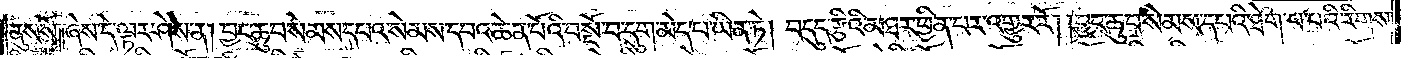ནུས་སོ༑ ༑ཞེས་དེ་ལྟར་ཤེས་ན། བྱང་ཆུབ་སེམས་དཔའ་སེམས་དཔའ་ཆེན་པོའི་བསྔོ་བ་དུག་མེད་པ་ཡིན་ཏེ། བདུད་རྩིའི་མཐར་ཕྱིན་པར་འགྱུར་རོ། །བྱང་ཆུབ་སེམས་དཔའི་ཐེག་པ་པའི་རིགས་
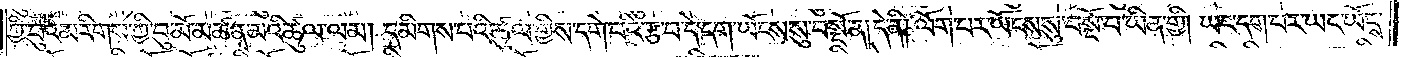ཀྱི་བུའམ་རིགས་ཀྱི་བུ་མོ་མཚན་མའི་ཚུལ་ལམ། དམིགས་པའི་ཚུལ་གྱིས་དགེ་བའི་རྩ་བ་དེ་དག་ཡོངས་སུ་བསྔོ་ན། དེ་ནི། ལོག་པར་ཡོངས་སུ་བསྔོ་བ་ཡིན་གྱི། ཡང་དག་པར་ཡང་ཡོངས་
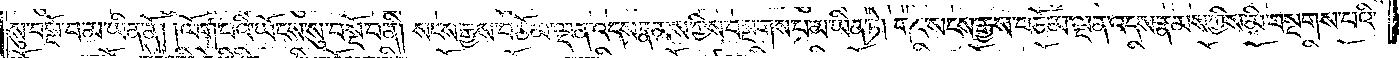སུ་བསྔོ་བ་མ་ཡིན་ནོ། །ལོག་པའི་ཡོངས་སུ་བསྔོ་བ་ནི། སངས་རྒྱས་བཅོམ་ལྡན་འདས་རྣམས་ཀྱིས་བསྔགས་པ་མ་ཡིན་ཏེ། གང་སངས་རྒྱས་བཅོམ་ལྡན་འདས་རྣམས་ཀྱིས་མི་བསྔགས་པའི་
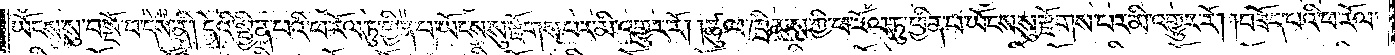ཡོངས་སུ་བསྔོ་བ་དེས་ནི། དེའི་སྦྱིན་པའི་ཕ་རོལ་ཏུ་ཕྱིན་པ་ཡོངས་སུ་རྫོགས་པར་མི་འགྱུར་རོ། །ཚུལ་ཁྲིམས་ཀྱི་ཕ་རོལ་ཏུ་ཕྱིན་པ་ཡོངས་སུ་རྫོགས་པར་མི་འགྱུར་རོ། །བཟོད་པའི་ཕ་རོལ་
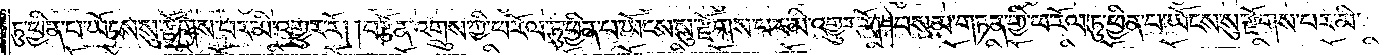ཏུ་ཕྱིན་པ་ཡོངས་སུ་རྫོགས་པར་མི་འགྱུར་རོ། །བརྩོན་འགྲུས་ཀྱི་ཕ་རོལ་ཏུ་ཕྱིན་པ་ཡོངས་སུ་རྫོགས་པར་མི་འགྱུར་རོ། །བསམ་གཏན་གྱི་ཕ་རོལ་ཏུ་ཕྱིན་པ་ཡོངས་སུ་རྫོགས་པར་མི་
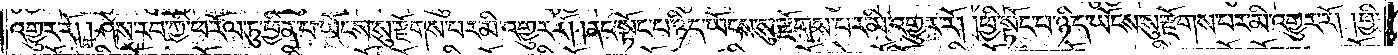འགྱུར་རོ། །ཤེས་རབ་ཀྱི་ཕ་རོལ་ཏུ་ཕྱིན་པ་ཡོངས་སུ་རྫོགས་པར་མི་འགྱུར་རོ། །ནང་སྟོང་པ་ཉིད་ཡོངས་སུ་རྫོགས་པར་མི་འགྱུར་རོ། །ཕྱི་སྟོང་པ་ཉིད་ཡོངས་སུ་རྫོགས་པར་མི་འགྱུར་རོ། །ཕྱི་
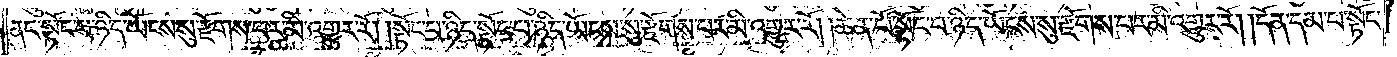ནང་སྟོང་པ་ཉིད་ཡོངས་སུ་རྫོགས་པར་མི་འགྱུར་རོ། །སྟོང་པ་ཉིད་སྟོང་པ་ཉིད་ཡོངས་སུ་རྫོགས་པར་མི་འགྱུར་རོ། །ཆེན་པོ་སྟོང་པ་ཉིད་ཡོངས་སུ་རྫོགས་པར་མི་འགྱུར་རོ། །དོན་དམ་པ་སྟོང་
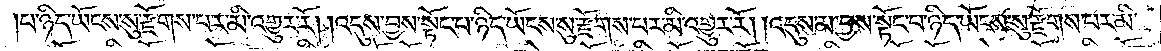པ་ཉིད་ཡོངས་སུ་རྫོགས་པར་མི་འགྱུར་རོ། །འདུས་བྱས་སྟོང་པ་ཉིད་ཡོངས་སུ་རྫོགས་པར་མི་འགྱུར་རོ། །འདུས་མ་བྱས་སྟོང་པ་ཉིད་ཡོངས་སུ་རྫོགས་པར་མི་
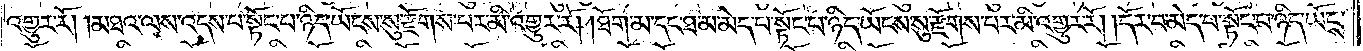འགྱུར་རོ། །མཐའ་ལས་འདས་པ་སྟོང་པ་ཉིད་ཡོངས་སུ་རྫོགས་པར་མི་འགྱུར་རོ། །ཐོག་མ་དང་ཐ་མ་མེད་པ་སྟོང་པ་ཉིད་ཡོངས་སུ་རྫོགས་པར་མི་འགྱུར་རོ། །དོར་བ་མེད་པ་སྟོང་པ་ཉིད་ཡོངས་
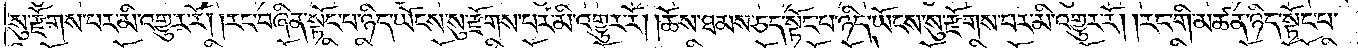སུ་རྫོགས་པར་མི་འགྱུར་རོ། །རང་བཞིན་སྟོང་པ་ཉིད་ཡོངས་སུ་རྫོགས་པར་མི་འགྱུར་རོ། །ཆོས་ཐམས་ཅད་སྟོང་པ་ཉིད་ཡོངས་སུ་རྫོགས་པར་མི་འགྱུར་རོ། །རང་གི་མཚན་ཉིད་སྟོང་པ་
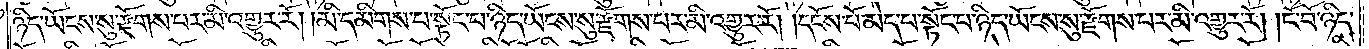ཉིད་ཡོངས་སུ་རྫོགས་པར་མི་འགྱུར་རོ། །མི་དམིགས་པ་སྟོང་པ་ཉིད་ཡོངས་སུ་རྫོགས་པར་མི་འགྱུར་རོ། །དངོས་པོ་མེད་པ་སྟོང་པ་ཉིད་ཡོངས་སུ་རྫོགས་པར་མི་འགྱུར་རོ། །ངོ་བོ་ཉིད་
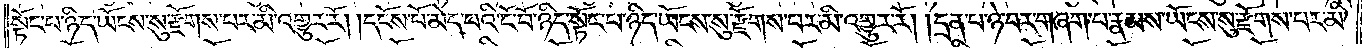སྟོང་པ་ཉིད་ཡོངས་སུ་རྫོགས་པར་མི་འགྱུར་རོ། །དངོས་པོ་མེད་པའི་ངོ་བོ་ཉིད་སྟོང་པ་ཉིད་ཡོངས་སུ་རྫོགས་པར་མི་འགྱུར་རོ། །དྲན་པ་ཉེ་བར་གཞག་པ་རྣམས་ཡོངས་སུ་རྫོགས་པར་མི་
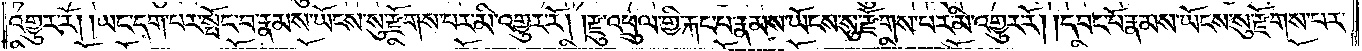འགྱུར་རོ། །ཡང་དག་པར་སྤོང་བ་རྣམས་ཡོངས་སུ་རྫོགས་པར་མི་འགྱུར་རོ། །རྫུ་འཕྲུལ་གྱི་རྐང་པ་རྣམས་ཡོངས་སུ་རྫོགས་པར་མི་འགྱུར་རོ། །དབང་པོ་རྣམས་ཡོངས་སུ་རྫོགས་པར་
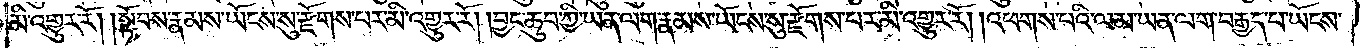མི་འགྱུར་རོ། །སྟོབས་རྣམས་ཡོངས་སུ་རྫོགས་པར་མི་འགྱུར་རོ། །བྱང་ཆུབ་ཀྱི་ཡན་ལག་རྣམས་ཡོངས་སུ་རྫོགས་པར་མི་འགྱུར་རོ། །འཕགས་པའི་ལམ་ཡན་ལག་བརྒྱད་པ་ཡོངས་
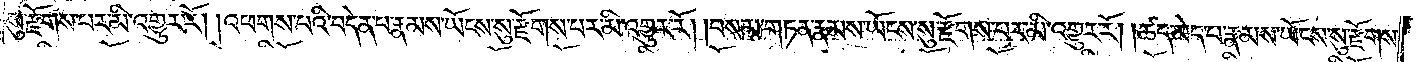སུ་རྫོགས་པར་མི་འགྱུར་རོ། །འཕགས་པའི་བདེན་པ་རྣམས་ཡོངས་སུ་རྫོགས་པར་མི་འགྱུར་རོ། །བསམ་གཏན་རྣམས་ཡོངས་སུ་རྫོགས་པར་མི་འགྱུར་རོ། །ཚད་མེད་པ་རྣམས་ཡོངས་སུ་རྫོགས་
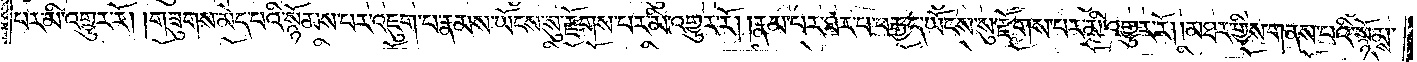པར་མི་འགྱུར་རོ། །གཟུགས་མེད་པའི་སྙོམས་པར་འཇུག་པ་རྣམས་ཡོངས་སུ་རྫོགས་པར་མི་འགྱུར་རོ། །རྣམ་པར་ཐར་པ་བརྒྱད་ཡོངས་སུ་རྫོགས་པར་མི་འགྱུར་རོ། །མཐར་གྱིས་གནས་པའི་སྙོམས་
